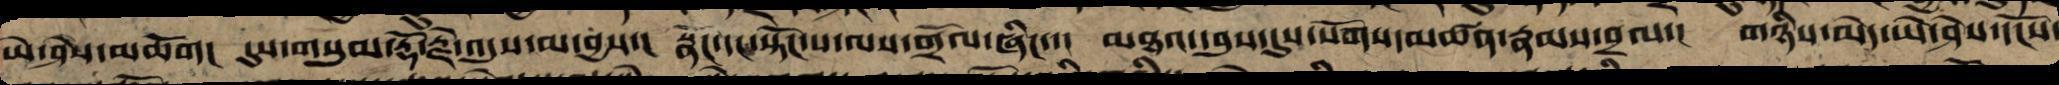ཡེ་ཤེས་མཆོག།  དུས་གསུམ་རྡོ་རྗེ་འདུས་མ་བྱས་། སྣང་དང་སྟོང་པ་ལས་གྲོལ་ཞིང་་། མཐའ་དབུས་དུས་སོགས་མཚན་རྣམས་བྲལ་། གཉིས་མེད་ཡེ་ཤེས་དངོས་
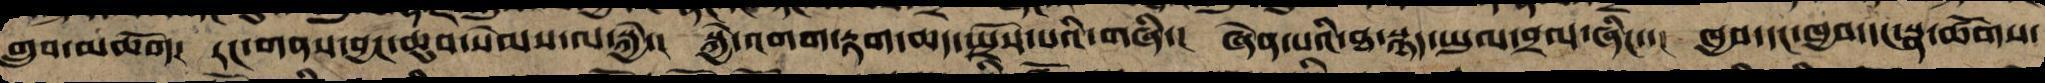གྲུབ་མཆོག། རང་གནས་བྱང་ཆུབ་སེམས་ལས་སྐྱེ་། སྐྱེ་འགག་རྟག་ཆད་སྤྲོས་པའི་གཞི་། ཞེན་པའི་ཐ་སྙད་ཡུལ་བྲལ་ཞིང་་། ཁྱབ་དང་ཁྱབ་དང་སྣ་ཚོགས་
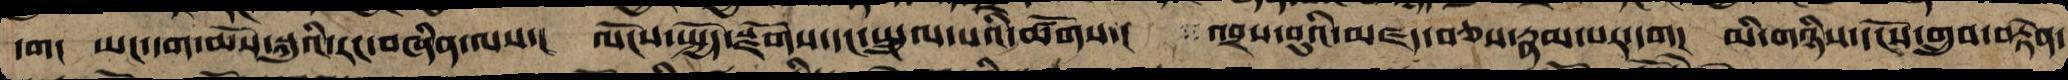དག ཡང་དག་ཆོས་སྐུའི་རང་བཞིན་ལས་། ལོངས་སྤྱོད་སྫོགས་དང་སྤྲུལ་པའི་ཚོགས་། འབྲས་བུའི་མཛད་བཅས་རྣམ་པར་དག། མི་གཉིས་དངོས་གྲུབ་བརྟེན་
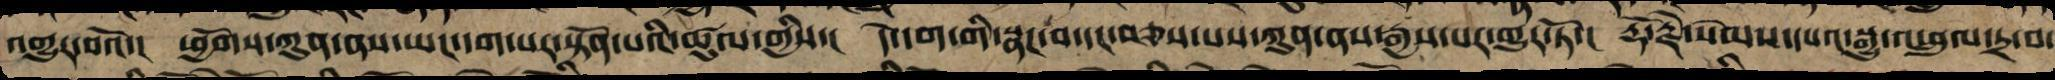འགྱུར་བའོ་། ཕྱོགས་ཀུན་ནས་ཡང་དག་པར་སྟོན་པའི་ཚུལ་གྱིས་།  དེ་དག་གི་སྣང་བ་དང་བཅས་པས་ཀུན་ནས་རྒྱས་པར་གྱུར་ཏོ་། རྡོ་རྗེ་སེམས་དཔའ་སྒྱུ་འཕྲུལ་དྲ་བ་
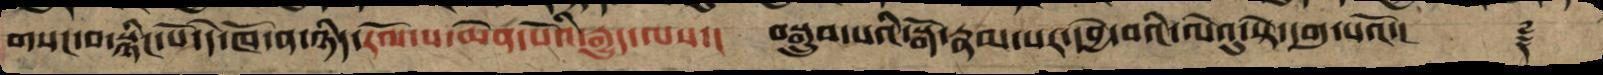གསང་བ་སྙིང་པོ་དེ་ཁོ་ན་ཉིད་རོལ་པ་ཆེན་པོའི་རྒྱུད་ལས་། བསྒྲུབ་པའི་སྒོ་རྣམ་པར་དབྱེ་བའི་ལེའུ་སྟེ་དགུ་པའོ་།།      ༈
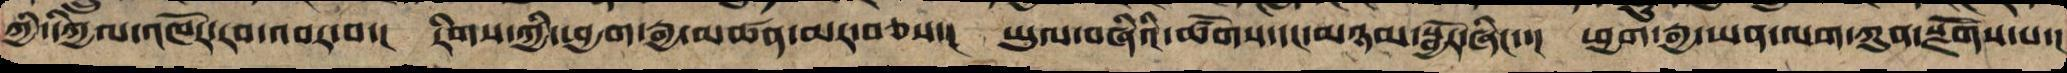ཀྱི་དཀྱིལ་འཁོར་རབ་འབར་བ་། རིགས་ཀྱི་ཕྱག་རྒྱ་མཚན་མར་བཅས་། ཡུལ་བཞིའི་ཚོགས་དང་མཉམ་སྦྱོར་ཞིང་་། ཕྱག་རྒྱ་ཡན་ལག་ཀུན་སྫོགས་པ་།
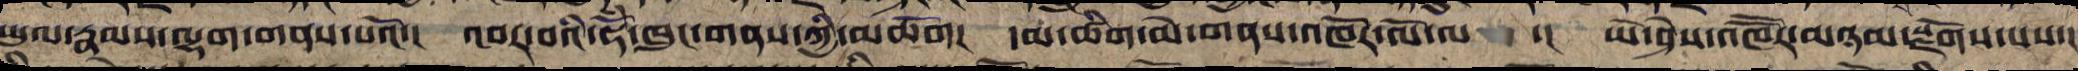ཡུལ་རྣམས་ལྷ་གནས་པའོ་། འབར་བའི་ཧོམ་ཁུང་གནས་ཀྱི་མཆོག། དམ་ཚིག་མེ་གནས་འཁོར་ལོ་ལ་། ཡེ་ཤེས་འཁོརོ་མཉམ་སྫོགས་པས་།
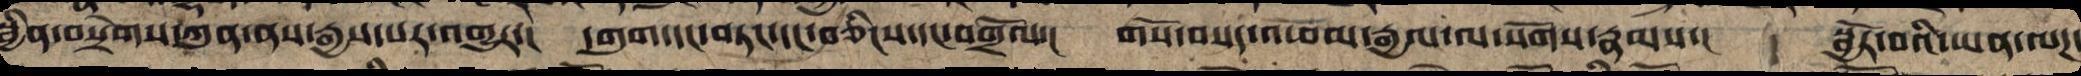སྦྱིན་བསྲེགས་ཀུན་ནས་རྒྱས་པར་འགྱུར་། དགུག་དང་གཏང་དང་བཅིངས་དང་བགྲོལ་། གསོ་གསད་འཕམ་རྒྱལ་ལ་སོགས་རྣམས་། སྦྱོར་བའི་ཡན་ལཌ་
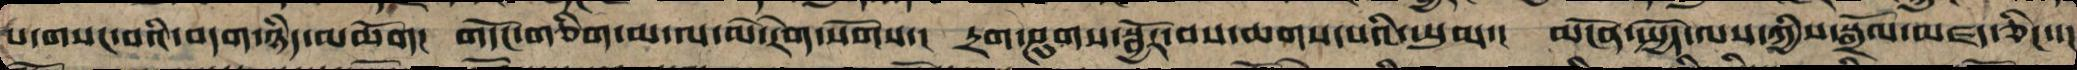པ་གསང་བའི་བདག་ཉིད་མཆོག། གདོང་གཅིག་མ་དང་མེ་རེག་སོགས་། དྲག་ཤུགས་སྦྱོར་བས་ཆགས་པའི་ཡུམ་། མངོན་སྤྱོད་ལས་ཀྱིས་སྒྲོལ་མཛད་ཅིང་་།
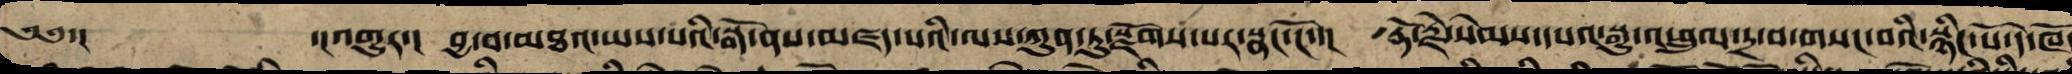༄༅་། ་།འགྱུར་། བྱ་བ་མཐའ་ཡས་པའི་སྒོ་ནས་མཛད་པའི་ལས་ཀུན་ཏུ་སྫོགས་པར་སྣང་ངོ་་། རྡོ་རྗེ་སེམས་དཔའ་སྒྱུ་འཕྲུལ་དྲ་བ་གསང་བའི་སྙིང་པོ་དེ་ཁོ
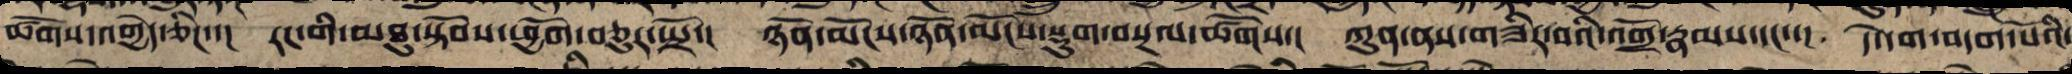ཚོགས་འགྱེད་ཅིང་་། རང་གི་མཐུ་སྟོབས་ཕྱོགས་བཅུར་སྤྲོ་། ཉོན་མོངས་ཉོན་མོངས་སྡུག་བསྔལ་ཚོགས་། ཀུན་ནས་གཟིར་བའི་འགྲོ་རྣམས་དང་་། དེ་དག་བདག་པོའི་
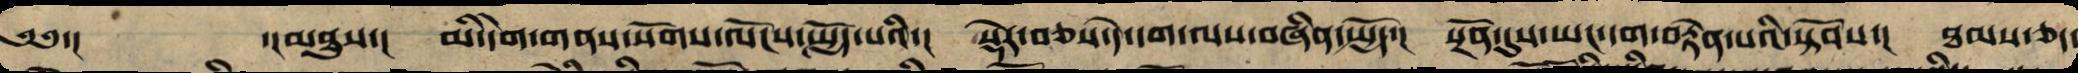༄༅་།       ་།མཐུས་། མི་དགེ་གནས་སོགས་ལོངས་སྤྱོད་པའི་། སྡེར་བཅས་དེ་དག་ལས་བཞིན་སྤྱོད་། སྔོན་དུས་ཡང་དག་བརྟེན་པའི་སྟོབས་། ཐམས་ཅད་
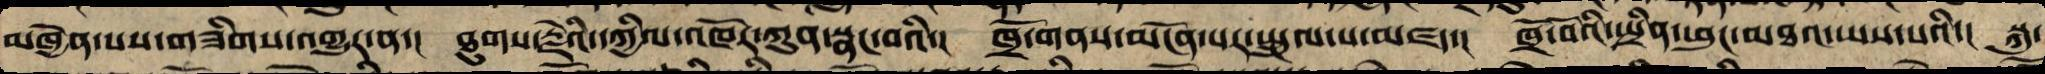མཁྱེན་པས་གཟིགས་འགྱུར་ན་། ཐུགས་རྗེའི་དཀྱིལ་འཁོར་ཀུན་སྣང་བའི་། ཁྲོ་གནས་མངོན་པར་སྤྲུལ་པ་མཛད་། ཁྲོ་བོའི་སྤྲིན་ཕུང་མཐའ་ཡས་པའི་། སྐུ་
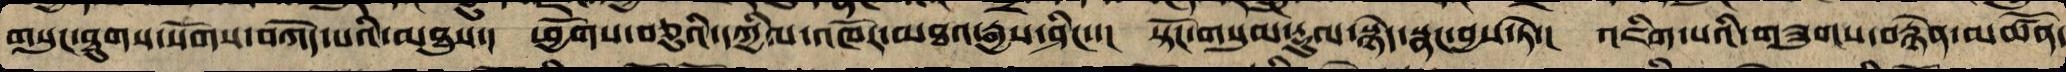གསུང་ཐུགས་སོགས་བཀོད་པའི་མཐུས་། ཕྱོགས་བཅུའི་དཀྱིལ་འཁོར་མཐའ་རྒྱས་ཤིང་་། སྟོང་གསུམ་རྡུལ་སྙེད་སྣང་བྱས་ཏེ་། འཇིག་པའི་གཟུགས་བརྙེན་མཚོན་
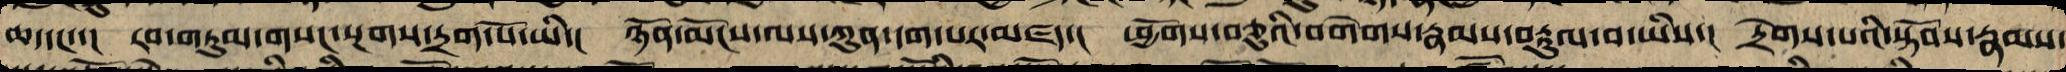ཆ་དང་་། རབ་གཏུམ་གསང་སྔགས་དྲག་པོ་ཡི་། ཉོན་མོངས་ལས་ཀུན་དག་པར་མཛད་། ཕྱོགས་བཅུའི་བགེགས་རྣམས་བརྟུལ་བ་ཡིས་། དྲེགས་པའི་སྟོབས་རྣམས་
